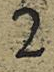2
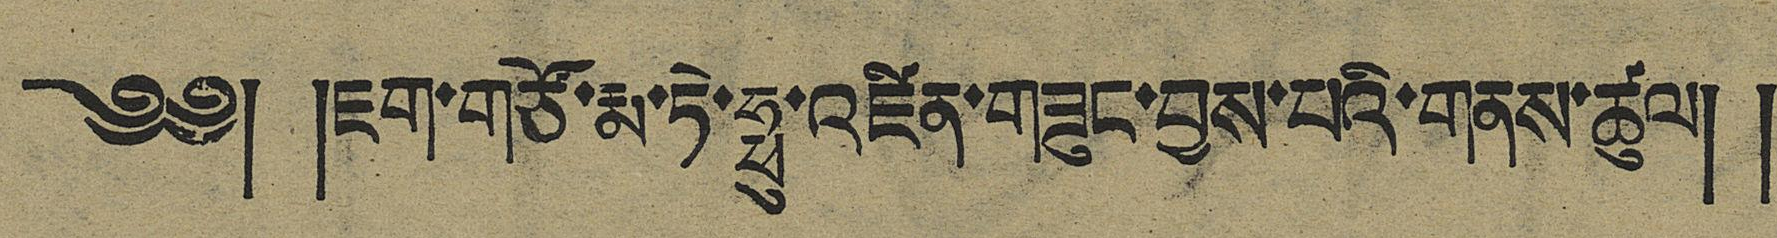༄༅། །ཇག་གཙོ་རྨ་ཏེ་ཧྥུ་འཛིན་གཟུང་བྱས་པའི་གནས་ཚུལ། །
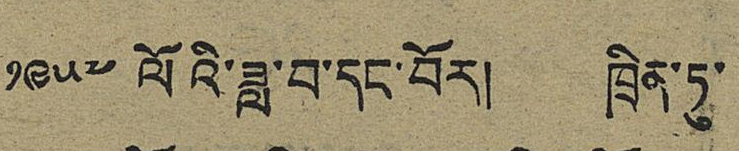༡༩༥༧ ལོའི་ཟླ་བ་དང་བོར། ཁྲིན་ཏུ་
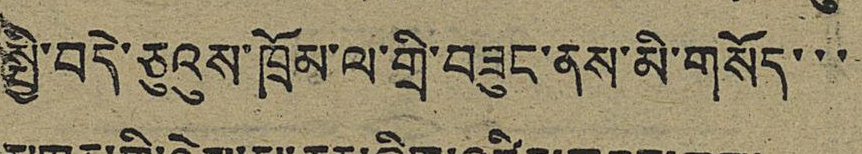སྤྱི་བདེ་ཅུའུས་ཁྲོམ་ལ་གྲི་བཟུང་ནས་མི་གསོད་་་
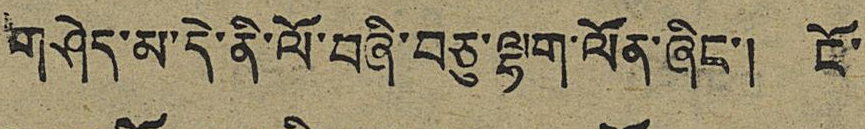གཤེད་མ་དེ་ནི་ལོ་བཞི་བཅུ་ལྷག་ལོན་ཞིང་། ངོ་
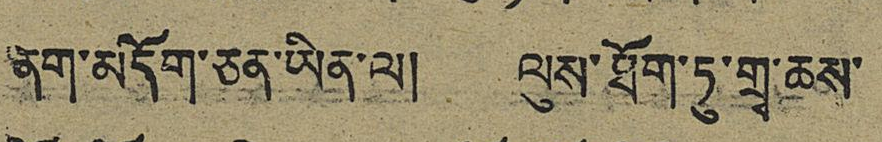ནག་མདོག་ཅན་ཡིན་ལ། ལུས་ཐོག་ཏུ་གྲྭ་ཆས་
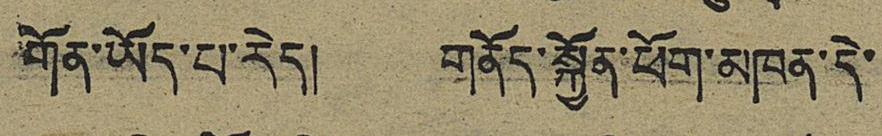གོན་ཡོད་པ་རེད། གནོད་སྐྱོན་ཕོག་མཁན་དེ་
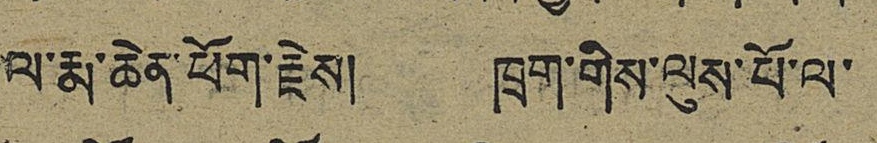ལ་རྨ་ཆེན་ཕོག་རྗེས། ཁྲག་གིས་ལུས་པོ་ལ་
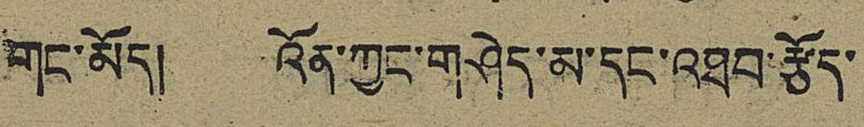གང་མོད། འོན་ཀྱང་གཤེད་མ་དང་འཐབ་རྩོད་
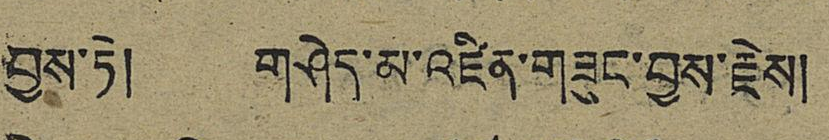བྱས་ཏེ། གཤེད་མ་འཛིན་གཟུང་བྱས་རྗེས།
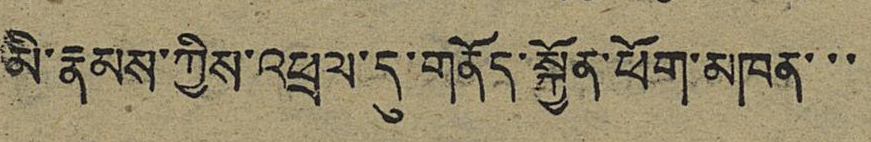མི་རྣམས་ཀྱིས་འཕྲལ་དུ་གནོད་སྐྱོན་ཕོག་མཁན་་་
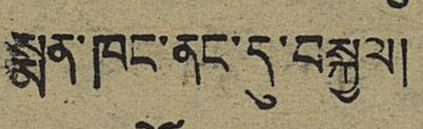སྨན་ཁང་ནང་དུ་བསྐྱལ།
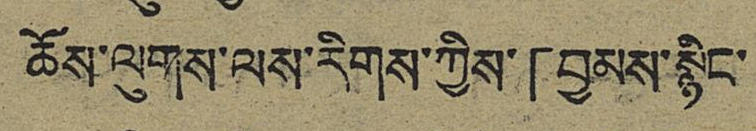ཆོས་ལུགས་ལས་རིགས་ཀྱིས་「བྱམས་སྙིང་
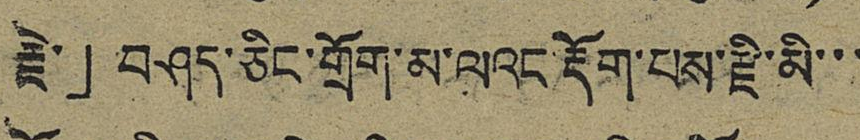རྗེ་」བཤད་ཅིང་གྲོག་མ་ལའང་རྡོག་པས་རྫི་མི་་་
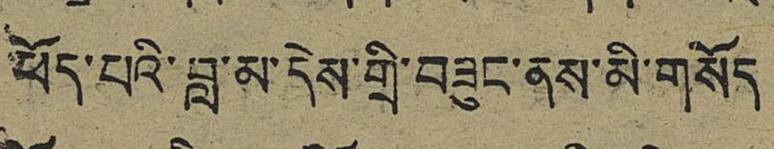ཕོད་པའི་བླ་མ་དེས་གྲི་བཟུང་ནས་མི་གསོད
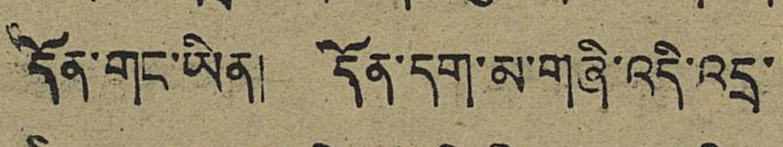དོན་གང་ཡིན། དོན་དག་མ་གཞི་འདི་འདྲ་
